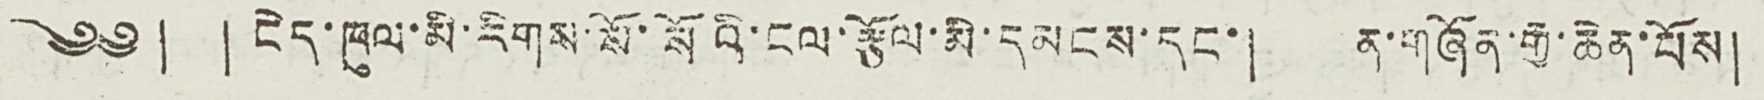༄༅། ། ངེད་ཁུལ་མི་རིགས་སོ་སོའི་ངལ་རྩོལ་མི་དམངས་དང་། ན་གཞོན་རྒྱ་ཆེན་པོས།
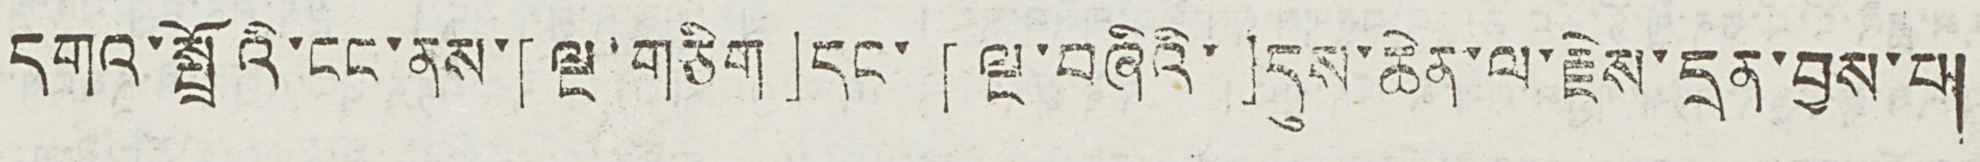དགའ་སྤྲོའི་ངང་ནས་「ལྔ་གཅིག」དང་「ལྔ་བཞིའི་」དུས་ཆེན་ལ་རྗེས་དྲན་བྱས་པ།
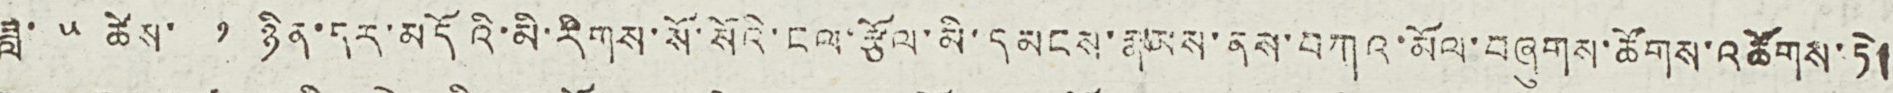ཟླ་ ༥ ཚེས་ ༡ ཉིན་དར་མདོའི་མི་རིགས་སོ་སོའི་ངལ་རྩོལ་མི་དམངས་རྣམས་ནས་བཀའ་མོལ་བཞུགས་ཚོགས་འཚོགས་ཏེ།
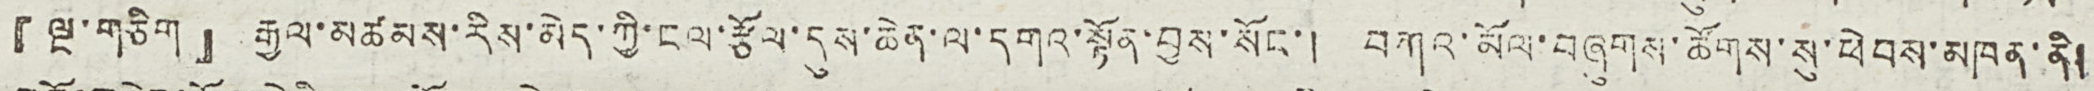『ལྔ་གཅིག』རྒྱལ་མཚམས་རིས་མེད་ཀྱི་ངལ་རྩོལ་དུས་ཆེན་ལ་དགའ་སྟོན་བྱས་སོང་། བཀའ་མོལ་བཞུགས་ཚོགས་སུ་ཕེབས་མཁན་ནི།
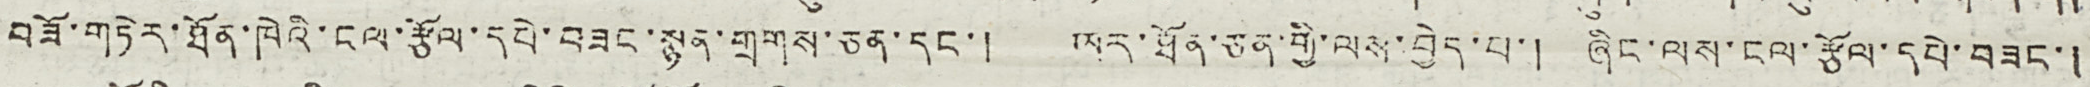བཟོ་གཏེར་ཐོན་ཁེའི་ངལ་རྩོལ་དཔེ་བཟང་སྙན་གྲགས་ཅན་དང་། ཡར་ཐོན་ཅན་གྱི་ལས་བྱེད་པ་། ཞིང་ལས་ངལ་རྩོལ་དཔེ་བཟང་།
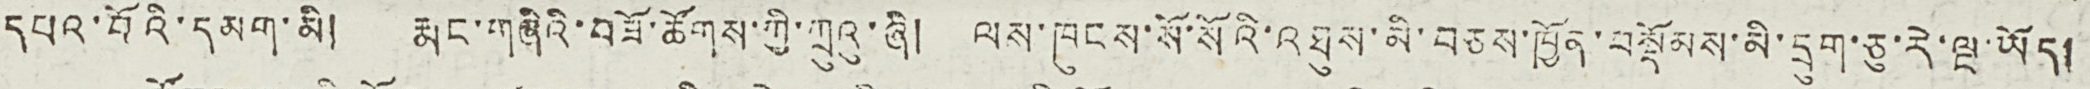དཔའ་བོའི་དམག་མི། རྨང་གཞིའི་བཟོ་ཚོགས་ཀྱི་ཀྲུའུ་ཞི། ལས་ཁུངས་སོ་སོའི་འཐུས་མི་བཅས་ཁྱོན་བསྡོམས་མི་དྲུག་ཅུ་རེ་ལྔ་ཡོད།
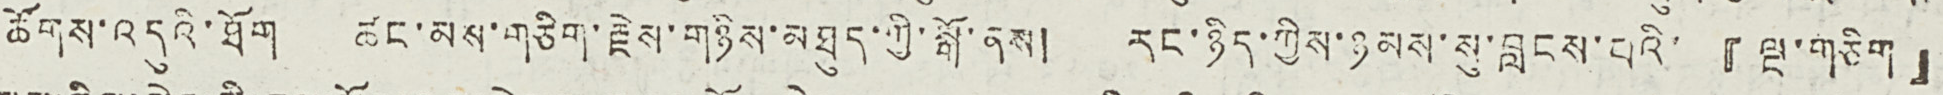ཚོགས་འདུའི་ཐོག ཚང་མས་གཅིག་རྗེས་གཉིས་མཐུད་ཀྱི་སྒོ་ནས། རང་ཉིད་ཀྱིས་ཉམས་སུ་བླངས་པའི་『ལྔ་གཅིག』
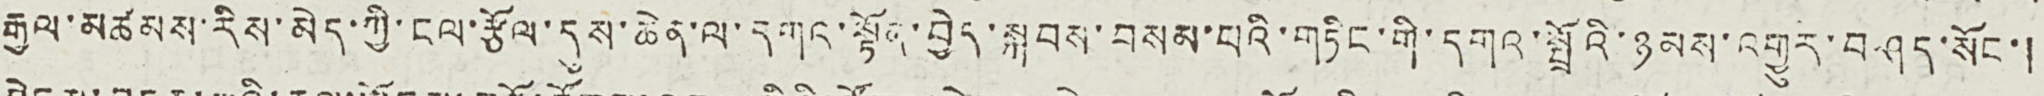རྒྱལ་མཚམས་རིས་མེད་ཀྱི་ངལ་རྩོལ་དུས་ཆེན་ལ་དགའ་སྟོན་བྱེད་སྐབས་བསམ་པའི་གཏིང་གི་དགའ་སྤྲོའི་ཉམས་འགྱུར་བཤད་སོང་།
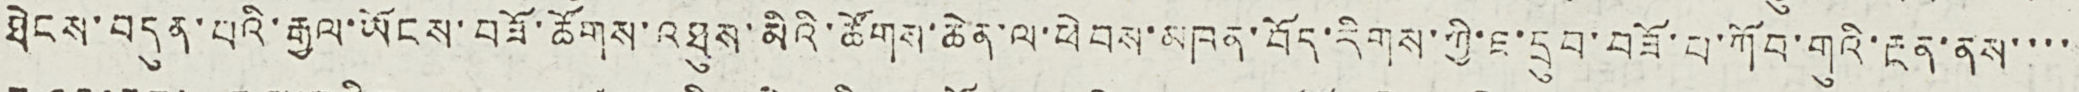ཐེངས་བདུན་པའི་རྒྱལ་ཡོངས་བཟོ་ཚོགས་འཐུས་མིའི་ཚོགས་ཆེན་ལ་ཕེབས་མཁན་བོད་རིགས་ཀྱི་ཇ་དྲུབ་བཟོ་པ་ཀོབ་གུའི་རྔན་ནས་་་་
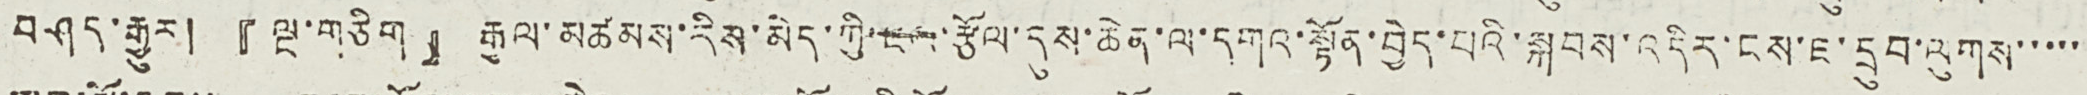བཤད་རྒྱུར། 『ལྔ་གཅིག』རྒྱལ་མཚམས་རིས་མེད་ཀྱི་ངལ་རྩོལ་དུས་ཆེན་ལ་དགའ་སྟོན་བྱེད་པའི་སྐབས་འདིར་ངས་ཇ་དྲུབ་ལུགས་་་་་
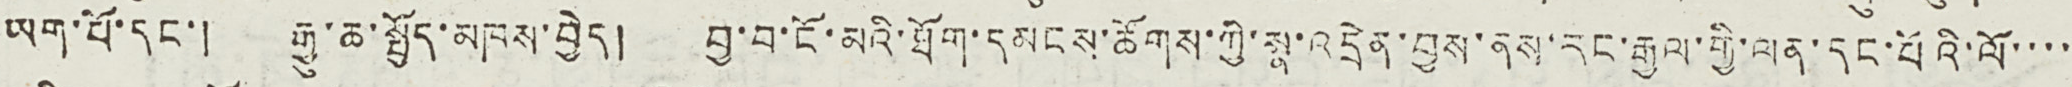ཡག་པོ་དང་། རྒྱུ་ཆ་སྤྱོད་མཁས་བྱེད། བྱ་བ་ངོ་མའི་ཐོག་དམངས་ཚོགས་ཀྱི་སྣ་འདྲེན་བྱས་ནས་རང་རྒྱལ་གྱི་ལན་དང་པོའི་ལོ་་་་
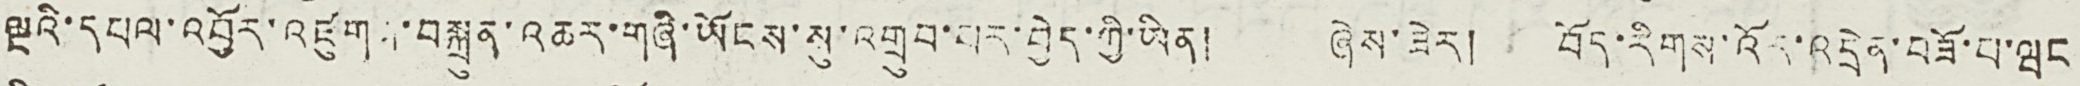ལྔའི་དཔལ་འབྱོར་འཛུགས་བསྐྲུན་འཆར་གཞི་ཡོངས་སུ་འགྲུབ་པར་བྱེད་ཀྱི་ཡིན། ཞེས་ཟེར། བོད་རིགས་འོད་འདྲེན་བཟོ་པ་ཝང
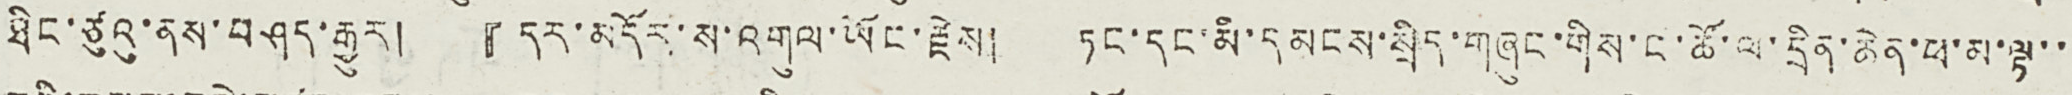ཐིང་ཙུའུ་ནས་བཤད་རྒྱུར། 『དར་མདོར་ས་འགུལ་ཡོང་རྗེས། ཏང་དང་མི་དམངས་སྲིད་གཞུང་གིས་ང་ཚོ་ལ་དྲིན་ཆེན་ཕ་མ་ལྟ་་
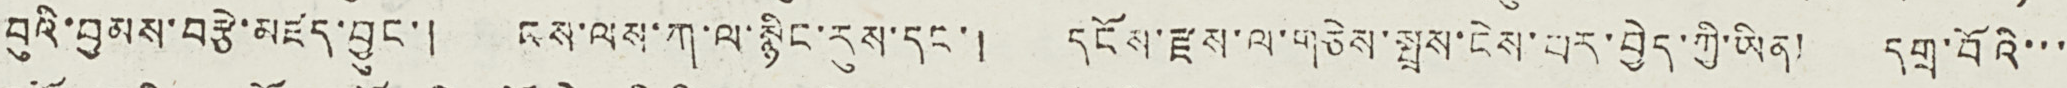བུའི་བྱམས་བརྩེ་མཛད་བྱུང་། ངས་ལས་ཀ་ལ་སྙིང་རུས་དང་། དངོས་རྫས་ལ་གཅེས་སྤྲས་ངེས་པར་བྱེད་ཀྱི་ཡིན། དགྲ་བོའི་་་
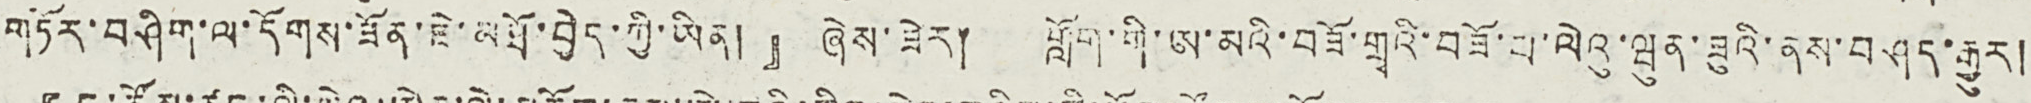གཏོར་བཤིག་ལ་དོགས་ཟོན་ཇེ་མཐོ་བྱེད་ཀྱི་ཡིན།』ཞེས་ཟེར། གློག་གི་ཨ་མའི་བཟོ་གྲྭའི་བཟོ་པ་ལེའུ་ཝུན་ཟུའི་ནས་བཤད་རྒྱུར།
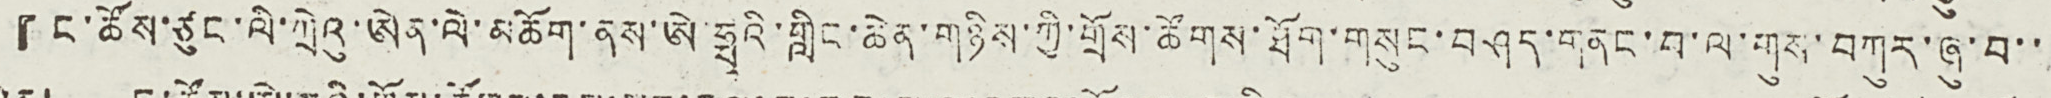『ང་ཚོས་ཙུང་ལི་ཀྲེའུ་ཨེན་ལེ་མཆོག་ནས་ཨེ་ཧྥཱའི་གླིང་ཆེན་གཉིས་ཀྱི་གྲོས་ཚོགས་ཐོག་གསུང་བཤད་གནང་བ་ལ་གུས་བཀུར་ཞུ་བ་་
